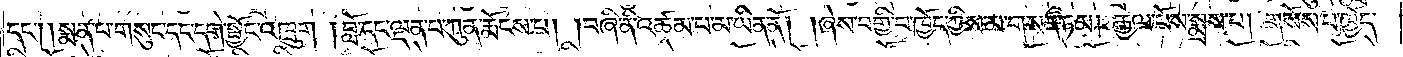དང༌། །སྨན་པ་གསུང་དང་དགེ་སྦྱོང་འཁྲུག །བློ་དང་ལྡན་པ་ཀུན་རྨོངས་པ། །བཞི་ནི་འཚམ་པ་མ་ཡིན་ནོ། །ཞེས་བགྱི་བ་ཁྱོད་ཀྱིས་མ་གསན་ཏམ། རྒྱལ་པོས་སྨྲས་པ། གསོས་པ་ཁྱོད་
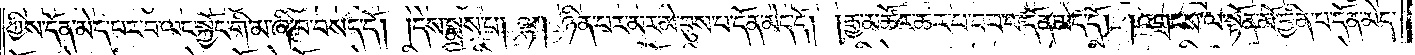ཀྱིས་དོན་མེད་པར་བ་ལང་སྐྱོང་གི་མ་ཞི་བ་བསད་དོ། །དེས་སྨྲས་པ། ལྷ། ཉིན་པར་མར་མེ་བུས་པ་དོན་མེད་དོ། །རྒྱ་མཚོར་ཆར་པ་བབ་པ་དོན་མེད་དོ། །འགྲངས་ལ་སྟོན་མོ་བྱིན་པ་དོན་མེད་
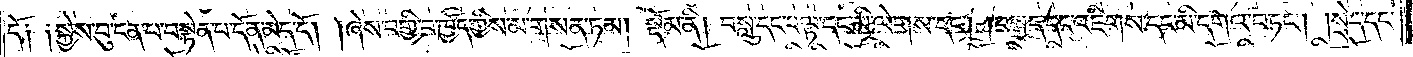དོ༑ ༑སྐྱེས་བུ་ངན་པ་བསྟེན་པ་དོན་མེད་དོ། །ཞེས་བགྱི་བ་ཁྱོད་ཀྱིས་མ་གསན་ཏམ། སྡོམ་ནི། བསླུ་དང་བལྟ་དང་མི་ལེགས་དང༌། །བསྐྲད་དང་འཇིགས་དང་མི་དགའ་བཏང༌། །སྲེད་དང་
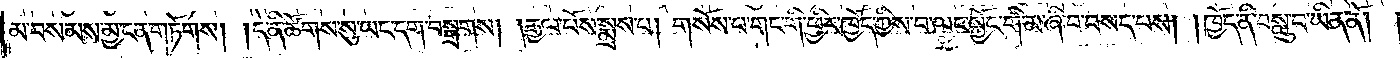མ་བསམས་མྱ་ངན་གཏོགས། །དེ་ནི་ཚོགས་སུ་ཡང་དག་བསྒྲགས། །རྒྱལ་པོས་སྨྲས་པ། གསོས་པ་གང་གི་ཕྱིར་ཁྱོད་ཀྱིས་བ་ལང་སྐྱོང་གི་མ་ཞི་བ་བསད་པས། །ཁྱོད་ནི་བསླུ་བ་ཡིན་ནོ། །
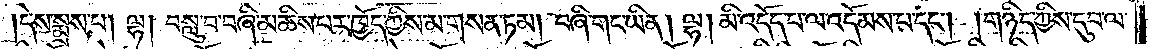དེས་སྨྲས་པ། ལྷ། བསླུ་བ་བཞི་མཆིས་པར་ཁྱོད་ཀྱིས་མ་གསན་ཏམ། བཞི་གང་ཡིན། ལྷ། མི་འདོད་པ་ལ་འདོམས་པ་དང༌། །གཉིད་ཀྱིས་དུབ་ལ་
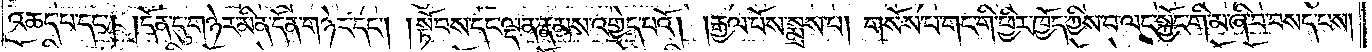འཆད་པ་དང༌། །དོན་དུ་གཉེར་མིན་དོན་གཉེར་དང༌། །སྟོབས་དང་ལྡན་རྣམས་འགྱེད་པའོ། །རྒྱལ་པོས་སྨྲས་པ། གསོས་པ་གང་གི་ཕྱིར་ཁྱོད་ཀྱིས་བ་ལང་སྐྱོང་གི་མ་ཞི་བ་བསད་པས།
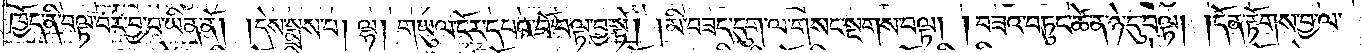ཁྱོད་ནི་བལྟ་བར་བྱ་བ་ཡིན་ནོ། །དེས་སྨྲས་པ། ལྷ། གཡུལ་ངོར་དཔའ་བོ་བལྟ་བྱ་སྟེ། །མི་བཟད་དུག་ལ་གསང་སྔགས་བལྟ། །བཟའ་བཏུང་ཚེ་ན་ཉེ་དུ་བལྟ། །དོན་རྟོགས་བྱ་ལ་
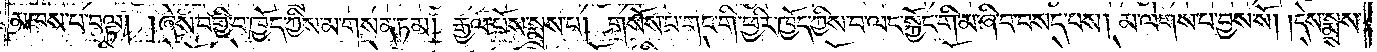མཁས་པ་བལྟ། །ཞེས་བགྱི་བ་ཁྱོད་ཀྱིས་མ་གསན་ཏམ། རྒྱལ་པོས་སྨྲས་པ། གསོས་པ་གང་གི་ཕྱིར་ཁྱོད་ཀྱིས་བ་ལང་སྐྱོང་གི་མ་ཞི་བ་བསད་པས། མ་ལེགས་པ་བྱས་སོ། །དེས་སྨྲས་
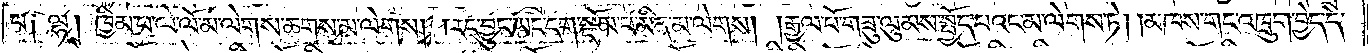པ༑ ལྷ། ཁྱིམ་པ་ལེ་ལོ་མ་ལེགས་ཆགས་མ་ལེགས། །རང་བྱུང་ཡང་དག་སྡོམ་པ་མིན་མ་ལེགས། །རྒྱལ་པོ་གཟུ་ལུམས་སྤྱོད་པའང་མ་ལེགས་ཏེ། །མཁས་གང་འཁྲུག་བྱེད་དེ་
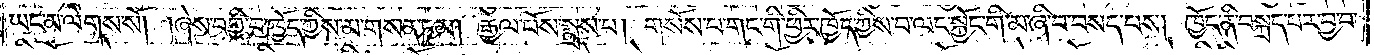ཡང་མ་ལེགས་སོ། །ཞེས་བགྱི་བ་ཁྱོད་ཀྱིས་མ་གསན་ཏམ། རྒྱལ་པོས་སྨྲས་པ། གསོས་པ་གང་གི་ཕྱིར་ཁྱོད་ཀྱིས་བ་ལང་སྐྱོང་གི་མ་ཞི་བ་བསད་པས། ཁྱོད་ནི་བསྐྲད་པར་བྱ་བ་
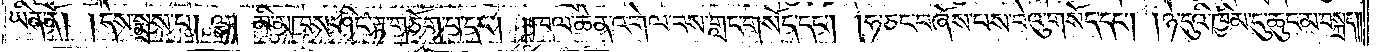ཡིན་ནོ། །དེས་སྨྲས་པ། ལྷ། མི་མཁས་ཤིང་རྟ་གཅོག་པ་དང༌། །ཁལ་ཆེན་འགེལ་བས་གླང་གསོད་དང༌། །ཧ་ཅང་བཞོས་པས་བེའུ་གསོད་དང༌། །ཉེ་དུའི་ཁྱིམ་དུ་ཆུང་མ་བསྐྲད༎
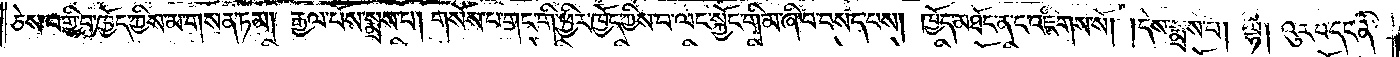ཅེས་བགྱི་བ་ཁྱོད་ཀྱིས་མ་གསན་ཏམ། རྒྱལ་པོས་སྨྲས་པ། གསོས་པ་གང་གི་ཕྱིར་ཁྱོད་ཀྱིས་བ་ལང་སྐྱོང་གི་མ་ཞི་བ་བསད་པས། ཁྱོད་མཐོང་ན་ང་འཇིགས་སོ། །དེས་སྨྲས་པ། ལྷ། འུར་པ་དང་ནི་
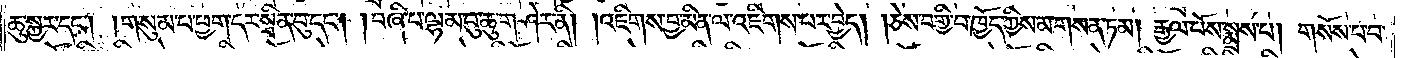ཆུ་སྐྱར་དང༌། །གསུམ་པ་ཕྱག་དར་སྲིན་བུ་དང༌། །བཞི་པ་ལྷམ་བུ་ཆུ་གཤེར་ནི། །འཇིགས་བྱ་མིན་ལ་འཇིགས་པར་བྱེད། །ཅེས་བགྱི་བ་ཁྱོད་ཀྱིས་མ་གསན་ཏམ། རྒྱལ་པོས་སྨྲས་པ། གསོས་པ་བ་
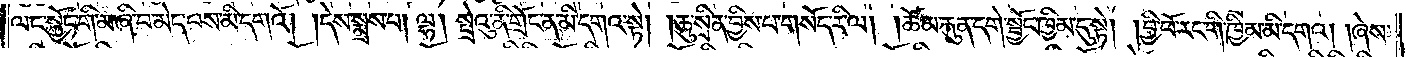ལང་སྐྱོང་གི་མ་ཞི་བ་མེད་པས་མི་དགའོ། །དེས་སྨྲས་པ། ལྷ། སྤྲེའུ་ནི་གྲོང་ན་མི་དགའ་སྟེ། །ཆུ་སྲིན་བྱིས་པ་གསོད་རི་ལ། །ཆོམ་རྐུན་དགེ་སྦྱོང་ཁྱིམ་དུ་སྟེ། །བྱི་ཕོ་རང་གི་ཁྱིམ་མི་དགའ། །ཞེས་
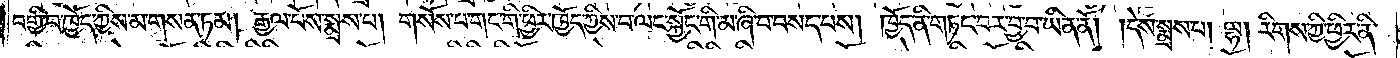བགྱི་བ་ཁྱོད་ཀྱིས་མ་གསན་ཏམ། རྒྱལ་པོས་སྨྲས་པ། གསོས་པ་གང་གི་ཕྱིར་ཁྱོད་ཀྱིས་བ་ལང་སྐྱོང་གི་མ་ཞི་བ་བསད་པས། ཁྱོད་ནི་གཏང་བར་བྱ་བ་ཡིན་ནོ། །དེས་སྨྲས་པ། ལྷ། རིགས་ཀྱི་ཕྱིར་ནི་
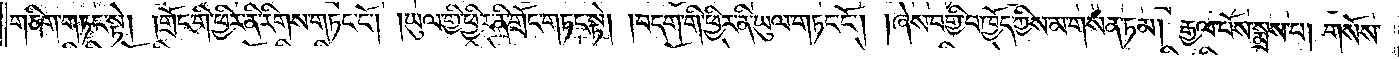གཅིག་གཏང་སྟེ། །གྲོང་གི་ཕྱིར་ནི་རིགས་གཏང་ངོ༌། །ཡུལ་གྱི་ཕྱིར་ནི་གྲོང་གཏང་སྟེ། །བདག་གི་ཕྱིར་ནི་ཡུལ་གཏང་ངོ༌། །ཞེས་བགྱི་བ་ཁྱོད་ཀྱིས་མ་གསན་ཏམ། རྒྱལ་པོས་སྨྲས་པ། གསོས་
